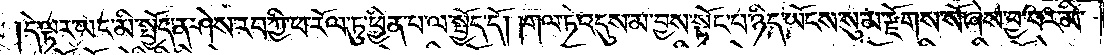དེ་ལྟར་ཡང་མི་སྤྱོད་ན་ཤེས་རབ་ཀྱི་ཕ་རོལ་ཏུ་ཕྱིན་པ་ལ་སྤྱོད་དོ། །གལ་ཏེ་འདུས་མ་བྱས་སྟོང་པ་ཉིད་ཡོངས་སུ་མ་རྫོགས་སོ་ཞེས་བྱ་བར་མི་
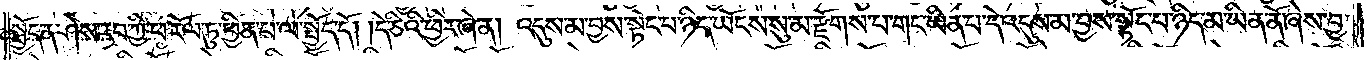སྤྱོད་ན་ཤེས་རབ་ཀྱི་ཕ་རོལ་ཏུ་ཕྱིན་པ་ལ་སྤྱོད་དོ། །དེ་ཅིའི་ཕྱིར་ཞེ་ན། འདུས་མ་བྱས་སྟོང་པ་ཉིད་ཡོངས་སུ་མ་རྫོགས་པ་གང་ཡིན་པ་དེ་འདུས་མ་བྱས་སྟོང་པ་ཉིད་མ་ཡིན་ནོ་ཞེས་བྱ་
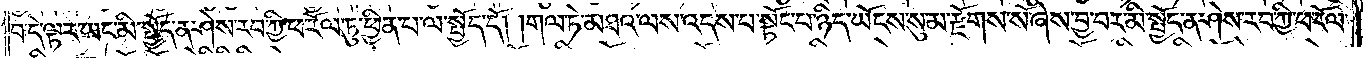བ་དེ་ལྟར་ཡང་མི་སྤྱོད་ན་ཤེས་རབ་ཀྱི་ཕ་རོལ་ཏུ་ཕྱིན་པ་ལ་སྤྱོད་དོ། །གལ་ཏེ་མཐའ་ལས་འདས་པ་སྟོང་པ་ཉིད་ཡོངས་སུ་མ་རྫོགས་སོ་ཞེས་བྱ་བར་མི་སྤྱོད་ན་ཤེས་རབ་ཀྱི་ཕ་རོལ་
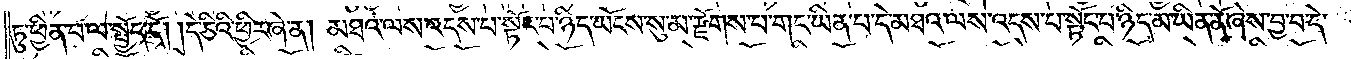ཏུ་ཕྱིན་པ་ལ་སྤྱོད་དོ། །དེ་ཅིའི་ཕྱིར་ཞེ་ན། མཐའ་ལས་འདས་པ་སྟོང་པ་ཉིད་ཡོངས་སུ་མ་རྫོགས་པ་གང་ཡིན་པ་དེ་མཐའ་ལས་འདས་པ་སྟོང་པ་ཉིད་མ་ཡིན་ནོ་ཞེས་བྱ་བ་དེ་
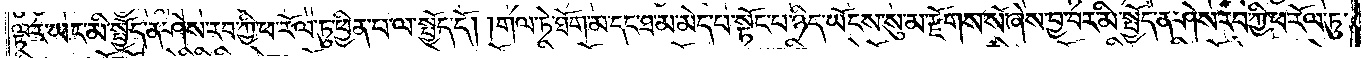ལྟར་ཡང་མི་སྤྱོད་ན་ཤེས་རབ་ཀྱི་ཕ་རོལ་ཏུ་ཕྱིན་པ་ལ་སྤྱོད་དོ། །གལ་ཏེ་ཐོག་མ་དང་ཐ་མ་མེད་པ་སྟོང་པ་ཉིད་ཡོངས་སུ་མ་རྫོགས་སོ་ཞེས་བྱ་བར་མི་སྤྱོད་ན་ཤེས་རབ་ཀྱི་ཕ་རོལ་ཏུ་
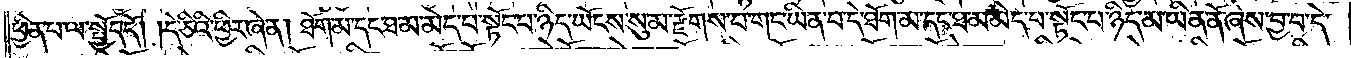ཕྱིན་པ་ལ་སྤྱོད་དོ། །དེ་ཅིའི་ཕྱིར་ཞེ་ན། ཐོག་མ་དང་ཐ་མ་མེད་པ་སྟོང་པ་ཉིད་ཡོངས་སུ་མ་རྫོགས་པ་གང་ཡིན་པ་དེ་ཐོག་མ་དང་ཐ་མ་མེད་པ་སྟོང་པ་ཉིད་མ་ཡིན་ནོ་ཞེས་བྱ་བ་དེ་
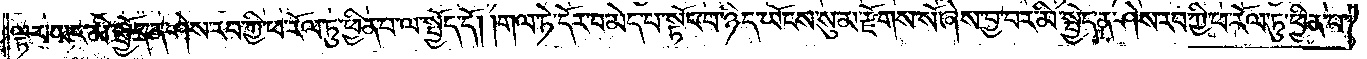ལྟར་ཡང་མི་སྤྱོད་ན་ཤེས་རབ་ཀྱི་ཕ་རོལ་ཏུ་ཕྱིན་པ་ལ་སྤྱོད་དོ། །གལ་ཏེ་དོར་བ་མེད་པ་སྟོང་པ་ཉིད་ཡོངས་སུ་མ་རྫོགས་སོ་ཞེས་བྱ་བར་མི་སྤྱོད་ན་ཤེས་རབ་ཀྱི་ཕ་རོལ་ཏུ་ཕྱིན་པ་
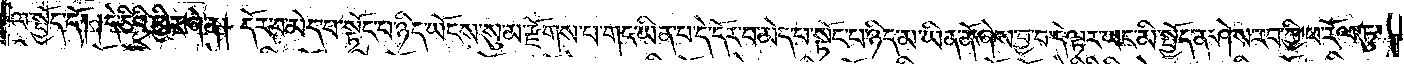ལ་སྤྱོད་དོ། །དེ་ཅིའི་ཕྱིར་ཞེ་ན། དོར་བ་མེད་པ་སྟོང་པ་ཉིད་ཡོངས་སུ་མ་རྫོགས་པ་གང་ཡིན་པ་དེ་དོར་བ་མེད་པ་སྟོང་པ་ཉིད་མ་ཡིན་ནོ་ཞེས་བྱ་བ་དེ་ལྟར་ཡང་མི་སྤྱོད་ན་ཤེས་རབ་ཀྱི་ཕ་རོལ་ཏུ་
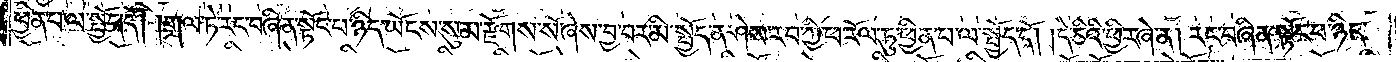ཕྱིན་པ་ལ་སྤྱོད་དོ། །གལ་ཏེ་རང་བཞིན་སྟོང་པ་ཉིད་ཡོངས་སུ་མ་རྫོགས་སོ་ཞེས་བྱ་བར་མི་སྤྱོད་ན་ཤེས་རབ་ཀྱི་ཕ་རོལ་ཏུ་ཕྱིན་པ་ལ་སྤྱོད་དོ། །དེ་ཅིའི་ཕྱིར་ཞེ་ན། རང་བཞིན་སྟོང་པ་ཉིད་
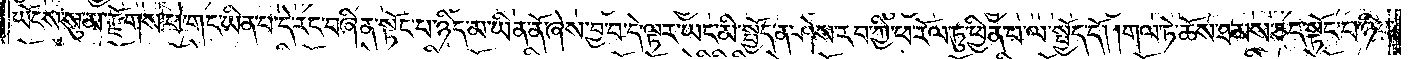ཡོངས་སུ་མ་རྫོགས་པ་གང་ཡིན་པ་དེ་རང་བཞིན་སྟོང་པ་ཉིད་མ་ཡིན་ནོ་ཞེས་བྱ་བ་དེ་ལྟར་ཡང་མི་སྤྱོད་ན་ཤེས་རབ་ཀྱི་ཕ་རོལ་ཏུ་ཕྱིན་པ་ལ་སྤྱོད་དོ། །གལ་ཏེ་ཆོས་ཐམས་ཅད་སྟོང་པ་ཉིད་
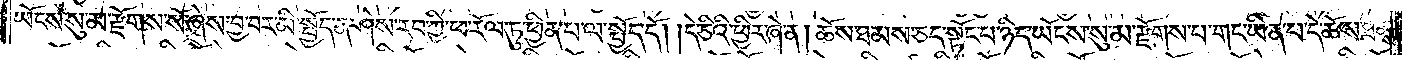ཡོངས་སུ་མ་རྫོགས་སོ་ཞེས་བྱ་བར་མི་སྤྱོད་ན་ཤེས་རབ་ཀྱི་ཕ་རོལ་ཏུ་ཕྱིན་པ་ལ་སྤྱོད་དོ། །དེ་ཅིའི་ཕྱིར་ཞེ་ན། ཆོས་ཐམས་ཅད་སྟོང་པ་ཉིད་ཡོངས་སུ་མ་རྫོགས་པ་གང་ཡིན་པ་དེ་ཆོས་ཐམས་
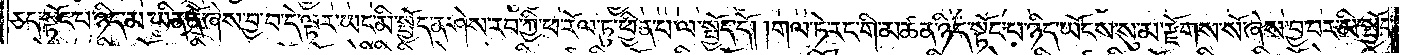ཅད་སྟོང་པ་ཉིད་མ་ཡིན་ནོ་ཞེས་བྱ་བ་དེ་ལྟར་ཡང་མི་སྤྱོད་ན་ཤེས་རབ་ཀྱི་ཕ་རོལ་ཏུ་ཕྱིན་པ་ལ་སྤྱོད་དོ། །གལ་ཏེ་རང་གི་མཚན་ཉིད་སྟོང་པ་ཉིད་ཡོངས་སུ་མ་རྫོགས་སོ་ཞེས་བྱ་བར་མི་སྤྱོད་
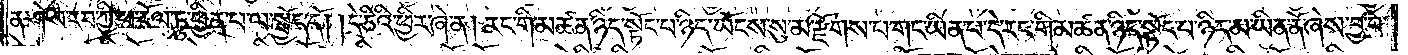ན་ཤེས་རབ་ཀྱི་ཕ་རོལ་ཏུ་ཕྱིན་པ་ལ་སྤྱོད་དོ། །དེ་ཅིའི་ཕྱིར་ཞེ་ན། རང་གི་མཚན་ཉིད་སྟོང་པ་ཉིད་ཡོངས་སུ་མ་རྫོགས་པ་གང་ཡིན་པ་དེ་རང་གི་མཚན་ཉིད་སྟོང་པ་ཉིད་མ་ཡིན་ནོ་ཞེས་བྱ་བ་
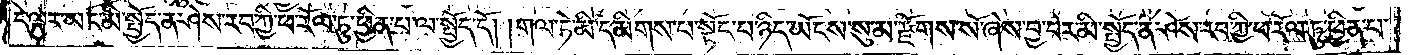དེ་ལྟར་ཡང་མི་སྤྱོད་ན་ཤེས་རབ་ཀྱི་ཕ་རོལ་ཏུ་ཕྱིན་པ་ལ་སྤྱོད་དོ། །གལ་ཏེ་མི་དམིགས་པ་སྟོང་པ་ཉིད་ཡོངས་སུ་མ་རྫོགས་སོ་ཞེས་བྱ་བར་མི་སྤྱོད་ན་ཤེས་རབ་ཀྱི་ཕ་རོལ་ཏུ་ཕྱིན་པ་
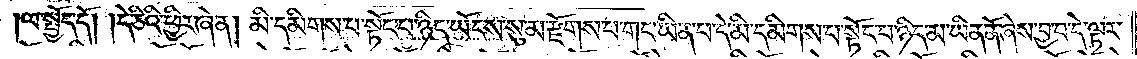ལ་སྤྱོད་དོ། །དེ་ཅིའི་ཕྱིར་ཞེ་ན། མི་དམིགས་པ་སྟོང་པ་ཉིད་ཡོངས་སུ་མ་རྫོགས་པ་གང་ཡིན་པ་དེ་མི་དམིགས་པ་སྟོང་པ་ཉིད་མ་ཡིན་ནོ་ཞེས་བྱ་བ་དེ་ལྟར་
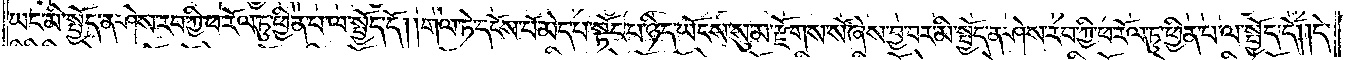ཡང་མི་སྤྱོད་ན་ཤེས་རབ་ཀྱི་ཕ་རོལ་ཏུ་ཕྱིན་པ་ལ་སྤྱོད་དོ། །གལ་ཏེ་དངོས་པོ་མེད་པ་སྟོང་པ་ཉིད་ཡོངས་སུ་མ་རྫོགས་སོ་ཞེས་བྱ་བར་མི་སྤྱོད་ན་ཤེས་རབ་ཀྱི་ཕ་རོལ་ཏུ་ཕྱིན་པ་ལ་སྤྱོད་དོ། །དེ་
